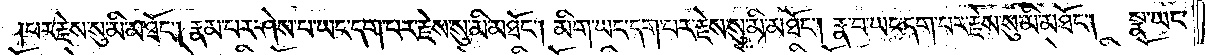པར་རྗེས་སུ་མི་མཐོང༌། རྣམ་པར་ཤེས་པ་ཡང་དག་པར་རྗེས་སུ་མི་མཐོང༌། མིག་ཡང་དག་པར་རྗེས་སུ་མི་མཐོང༌། རྣ་བ་ཡང་དག་པར་རྗེས་སུ་མི་མཐོང༌། སྣ་ཡང་
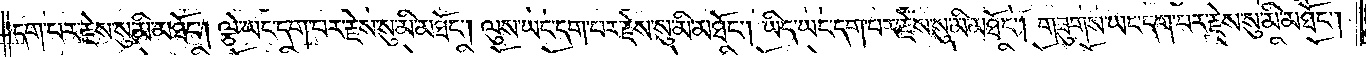དག་པར་རྗེས་སུ་མི་མཐོང༌། ལྕེ་ཡང་དག་པར་རྗེས་སུ་མི་མཐོང༌། ལུས་ཡང་དག་པར་རྗེས་སུ་མི་མཐོང༌། ཡིད་ཡང་དག་པར་རྗེས་སུ་མི་མཐོང༌། གཟུགས་ཡང་དག་པར་རྗེས་སུ་མི་མཐོང༌།
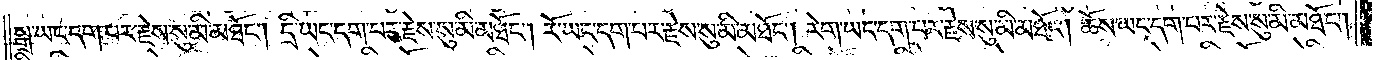སྒྲ་ཡང་དག་པར་རྗེས་སུ་མི་མཐོང༌། དྲི་ཡང་དག་པར་རྗེས་སུ་མི་མཐོང༌། རོ་ཡང་དག་པར་རྗེས་སུ་མི་མཐོང༌། རེག་ཡང་དག་པར་རྗེས་སུ་མི་མཐོང༌། ཆོས་ཡང་དག་པར་རྗེས་སུ་མི་མཐོང༌།
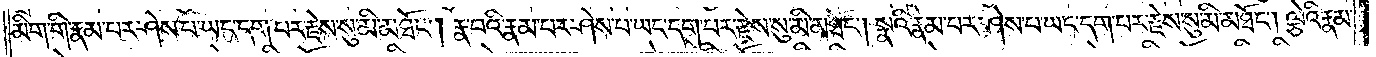མིག་གི་རྣམ་པར་ཤེས་པ་ཡང་དག་པར་རྗེས་སུ་མི་མཐོང༌། རྣ་བའི་རྣམ་པར་ཤེས་པ་ཡང་དག་པར་རྗེས་སུ་མི་མཐོང༌། སྣའི་རྣམ་པར་ཤེས་པ་ཡང་དག་པར་རྗེས་སུ་མི་མཐོང༌། ལྕེའི་རྣམ་
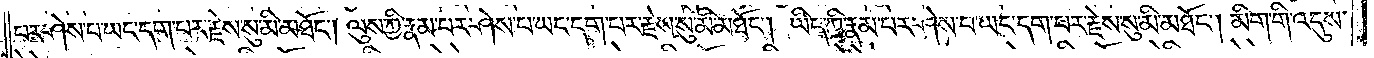པར་ཤེས་པ་ཡང་དག་པར་རྗེས་སུ་མི་མཐོང༌། ལུས་ཀྱི་རྣམ་པར་ཤེས་པ་ཡང་དག་པར་རྗེས་སུ་མི་མཐོང༌། ཡིད་ཀྱི་རྣམ་པར་ཤེས་པ་ཡང་དག་པར་རྗེས་སུ་མི་མཐོང༌། མིག་གི་འདུས་
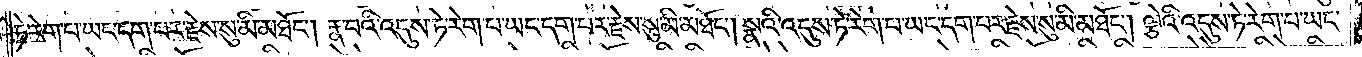ཏེ་རེག་པ་ཡང་དག་པར་རྗེས་སུ་མི་མཐོང༌། རྣ་བའི་འདུས་ཏེ་རེག་པ་ཡང་དག་པར་རྗེས་སུ་མི་མཐོང༌། སྣའི་འདུས་ཏེ་རེག་པ་ཡང་དག་པར་རྗེས་སུ་མི་མཐོང༌། ལྕེའི་འདུས་ཏེ་རེག་པ་ཡང་
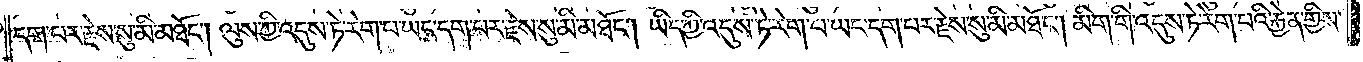དག་པར་རྗེས་སུ་མི་མཐོང༌། ལུས་ཀྱི་འདུས་ཏེ་རེག་པ་ཡང་དག་པར་རྗེས་སུ་མི་མཐོང༌། ཡིད་ཀྱི་འདུས་ཏེ་རེག་པ་ཡང་དག་པར་རྗེས་སུ་མི་མཐོང༌། མིག་གི་འདུས་ཏེ་རེག་པའི་རྐྱེན་གྱིས་
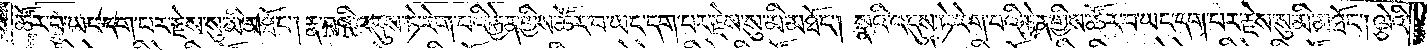ཚོར་བ་ཡང་དག་པར་རྗེས་སུ་མི་མཐོང༌། རྣ་བའི་འདུས་ཏེ་རེག་པའི་རྐྱེན་གྱིས་ཚོར་བ་ཡང་དག་པར་རྗེས་སུ་མི་མཐོང༌། སྣའི་འདུས་ཏེ་རེག་པའི་རྐྱེན་གྱིས་ཚོར་བ་ཡང་དག་པར་རྗེས་སུ་མི་མཐོང༌། ལྕེའི་
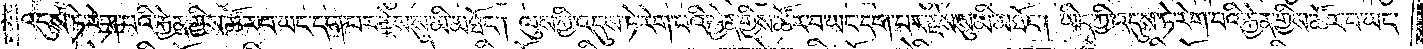འདུས་ཏེ་རེག་པའི་རྐྱེན་གྱིས་ཚོར་བ་ཡང་དག་པར་རྗེས་སུ་མི་མཐོང༌། ལུས་ཀྱི་འདུས་ཏེ་རེག་པའི་རྐྱེན་གྱིས་ཚོར་བ་ཡང་དག་པར་རྗེས་སུ་མི་མཐོང༌། ཡིད་ཀྱི་འདུས་ཏེ་རེག་པའི་རྐྱེན་གྱིས་ཚོར་བ་ཡང་
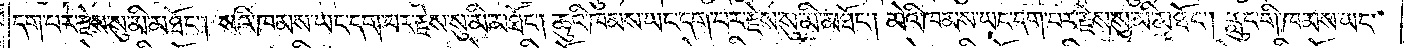དག་པར་རྗེས་སུ་མི་མཐོང༌། སའི་ཁམས་ཡང་དག་པར་རྗེས་སུ་མི་མཐོང༌། ཆུའི་ཁམས་ཡང་དག་པར་རྗེས་སུ་མི་མཐོང༌། མེའི་ཁམས་ཡང་དག་པར་རྗེས་སུ་མི་མཐོང༌། རླུང་གི་ཁམས་ཡང་
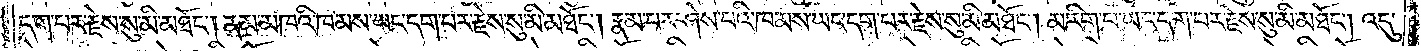དག་པར་རྗེས་སུ་མི་མཐོང༌། ནམ་མཁའི་ཁམས་ཡང་དག་པར་རྗེས་སུ་མི་མཐོང༌། རྣམ་པར་ཤེས་པའི་ཁམས་ཡང་དག་པར་རྗེས་སུ་མི་མཐོང༌། མ་རིག་པ་ཡང་དག་པར་རྗེས་སུ་མི་མཐོང༌། འདུ་
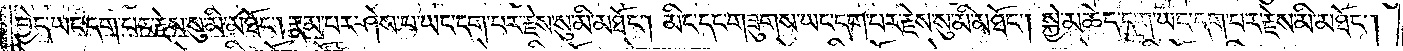བྱེད་ཡང་དག་པར་རྗེས་སུ་མི་མཐོང༌། རྣམ་པར་ཤེས་པ་ཡང་དག་པར་རྗེས་སུ་མི་མཐོང༌། མིང་དང་གཟུགས་ཡང་དག་པར་རྗེས་སུ་མི་མཐོང༌། སྐྱེ་མཆེད་དྲུག་ཡང་དག་པར་རྗེས་སུ་མི་མཐོང༌།
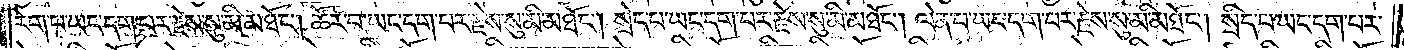རེག་པ་ཡང་དག་པར་རྗེས་སུ་མི་མཐོང༌། ཚོར་བ་ཡང་དག་པར་རྗེས་སུ་མི་མཐོང༌། སྲེད་པ་ཡང་དག་པར་རྗེས་སུ་མི་མཐོང༌། ལེན་པ་ཡང་དག་པར་རྗེས་སུ་མི་མཐོང༌། སྲིད་པ་ཡང་དག་པར་
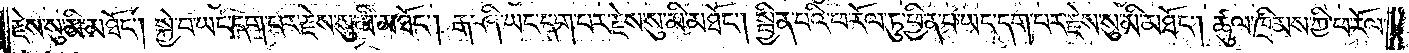རྗེས་སུ་མི་མཐོང༌། སྐྱེ་བ་ཡང་དག་པར་རྗེས་སུ་མི་མཐོང༌། རྒ་ཤི་ཡང་དག་པར་རྗེས་སུ་མི་མཐོང༌། སྦྱིན་པའི་ཕ་རོལ་ཏུ་ཕྱིན་པ་ཡང་དག་པར་རྗེས་སུ་མི་མཐོང༌། ཚུལ་ཁྲིམས་ཀྱི་ཕ་རོལ་
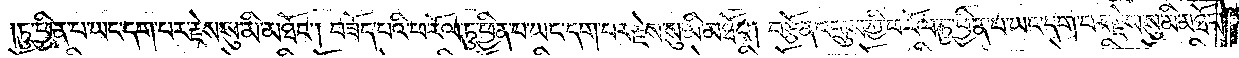ཏུ་ཕྱིན་པ་ཡང་དག་པར་རྗེས་སུ་མི་མཐོང༌། བཟོད་པའི་ཕ་རོལ་ཏུ་ཕྱིན་པ་ཡང་དག་པར་རྗེས་སུ་མི་མཐོང༌། བརྩོན་འགྲུས་ཀྱི་ཕ་རོལ་ཏུ་ཕྱིན་པ་ཡང་དག་པར་རྗེས་སུ་མི་མཐོང༌།
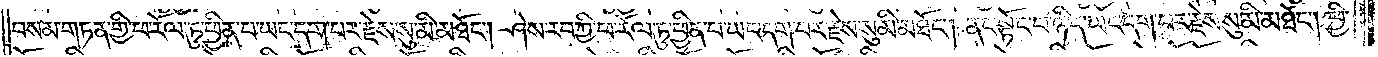བསམ་གཏན་གྱི་ཕ་རོལ་ཏུ་ཕྱིན་པ་ཡང་དག་པར་རྗེས་སུ་མི་མཐོང༌། །ཤེས་རབ་ཀྱི་ཕ་རོལ་ཏུ་ཕྱིན་པ་ཡང་དག་པར་རྗེས་སུ་མི་མཐོང༌། ནང་སྟོང་པ་ཉིད་ཡང་དག་པར་རྗེས་སུ་མི་མཐོང༌། ཕྱི་
